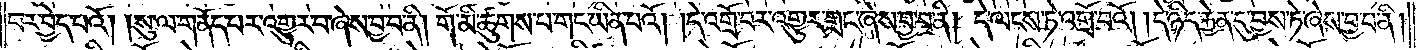པར་བྱེད་པའོ། །སུ་ལ་གནོད་པར་འགྱུར་པ་ཞེས་བྱ་བ་ནི། གོ་མི་ཚུགས་པ་གང་ཡིན་པའོ། །དེ་འགྲོ་བར་འགྱུར་གྲང་ཞེས་བྱ་བ་ནི། དེ་ལངས་ཏེ་འགྲོ་བའོ། །དེ་ཉིད་རྐྱེན་དུ་བྱས་ཏེ་ཞེས་བྱ་བ་ནི།
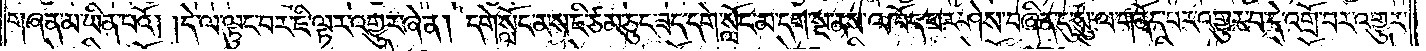གཞན་མ་ཡིན་པའོ། །དེ་ལ་ལྟུང་བར་ཇི་ལྟར་འགྱུར་ཞེ་ན། དགེ་སློང་མས་ཇི་ཙམ་ཅུང་ཟད་དགེ་སློང་མ་དག་སྔ་ནས་འཁོད་པར་ཤེས་བཞིན་དུ་སུ་ལ་གནོད་པར་འགྱུར་བ་དེ་འགྲོ་བར་འགྱུར་
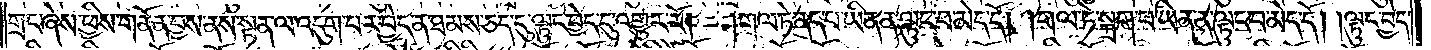གྲང་ཞེས་ཕྱིས་གནོན་བྱས་ནས་སྟན་ལ་འདུག་པར་བྱེད་ན་ཐམས་ཅད་དུ་ལྟུང་བྱེད་དུ་འགྱུར་རོ། །གལ་ཏེ་ནད་པ་ཡིན་ན་ལྟུང་བ་མེད་དོ། །གལ་ཏེ་སྐྲག་པ་ཡིན་ན་ལྟུང་བ་མེད་དོ། །ལྟུང་བྱེད་
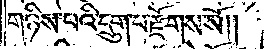གཉིས་པའི་དྲུག་པ་རྫོགས་སོ༎
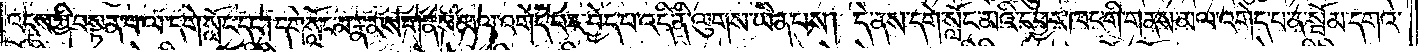འདས་ཀྱི་བསྟན་པ་ལ་དགེ་སློང་དང༌། དགེ་སློང་མ་རྣམས་གནས་མལ་འགེད་པར་བྱེད་པ་འདི་ནི་ལུགས་ཡིན་པས། དེ་ནས་དགེ་སློང་མའི་དབྱར་ཁང་གི་གནས་མལ་འགེད་པ་ན་སྦོམ་དགའ་
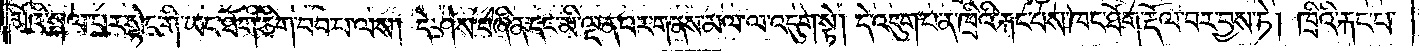མོའི་སྐལ་པར་སྟེང་གི་ཡང་ཐོག་ཅིག་བབ་པ་ལས། དེ་ཤེས་བཞིན་དང་མི་ལྡན་པར་གནས་མལ་ལ་འདུག་སྟེ། དེ་འདུག་པ་ན་ཁྲིའི་རྐང་པས་རྐང་བས་ཁང་ཐོག་རྡོལ་བར་བྱས་ཏེ། ཁྲིའི་རྐང་པ་
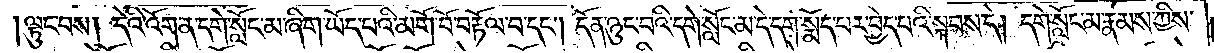ལྟུང་བས། དེའི་འོག་ན་དགེ་སློང་མ་ཞིག་ཡོད་པའི་མགོ་བོ་བརྟོལ་བ་དང༌། དོན་ཉུང་བའི་དགེ་སློང་མ་དེ་དག་སྨོད་པར་བྱེད་པའི་སྐབས་དེ། དགེ་སློང་མ་རྣམས་ཀྱིས་
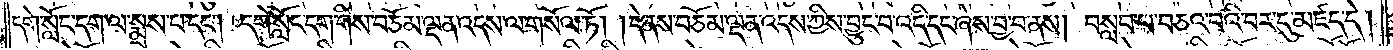དགེ་སློང་དག་ལ་སྨྲས་པ་དང༌། དགེ་སློང་དག་གིས་བཅོམ་ལྡན་འདས་ལ་གསོལ་ཏོ། །དེ་ནས་བཅོམ་ལྡན་འདས་ཀྱིས་བྱུང་བ་འདི་དང་ཞེས་བྱ་བ་ནས། བསླབ་པ་བཅའ་བའི་བར་དུ་མཛད་དེ།
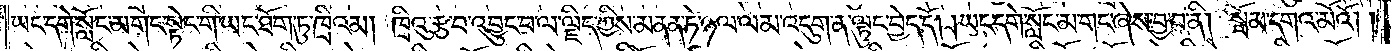ཡང་དགེ་སློང་མ་གང་སྟེང་གི་ཡང་ཐོག་ཏུ་ཁྲིའམ། ཁྲིའུ་རྩ་བ་འབྱུང་བ་ལ་ལྗིད་ཀྱིས་མནན་ཏེ་ཉལ་ལམ་འདུག་ན་ལྟུང་བྱེད་དོ། །ཡང་དགེ་སློང་མ་གང་ཞེས་བྱ་བ་ནི། སྦོམ་དགའ་མོའོ། །
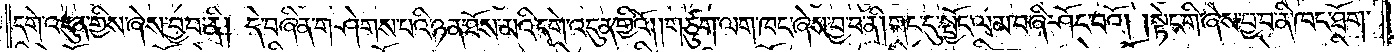དགེ་འདུན་གྱིས་ཞེས་བྱ་བ་ནི། དེ་བཞིན་གཤེགས་པའི་ཉན་ཐོས་མའི་དགེ་འདུན་གྱིའོ། །གཙུག་ལག་ཁང་ཞེས་བྱ་བ་ནི། གང་དུ་སྤྱོད་ལམ་བཞི་ཤོང་བའོ། །སྟེང་གི་ཞེས་བྱ་བ་ནི་ཁང་ཐོག་
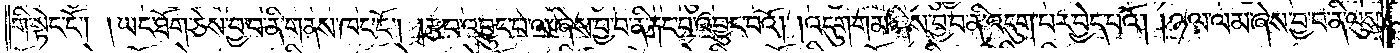གི་སྟེང་ངོ༌། །ཡང་ཐོག་ཅེས་བྱ་བ་ནི་གནས་ཁང་ངོ༌། །རྩ་བ་འབྱུང་བ་ལ་ཞེས་བྱ་བ་ནི་རྐང་པ་འབྱུང་བའོ། །འདུག་གམ་ཞེས་བྱ་བ་ནི་འདུག་པར་བྱེད་པའོ། །ཉལ་ལམ་ཞེས་བྱ་བ་ནི་ལུས་
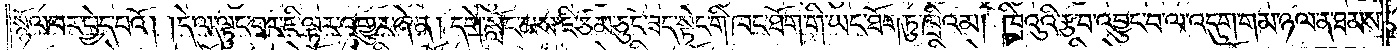སྙོལ་བར་བྱེད་པའོ། །དེ་ལ་ལྟུང་བར་ཇི་ལྟར་འགྱུར་ཞེ་ན། དགེ་སློང་མས་ཇི་ཙམ་ཅུང་ཟད་སྟེང་གི་ཁང་ཐོག་གི་ཡང་ཐོག་ཏུ་ཁྲིའམ། ཁྲིའུའི་རྩ་བ་འབྱུང་བ་ལ་འདུག་གམ་ཉལ་ན་ཐམས་
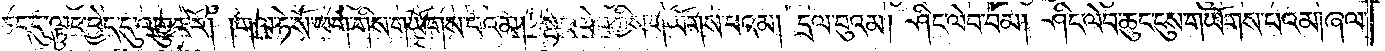ཅད་དུ་ལྟུང་བྱེད་དུ་གྱུར་རོ། །གལ་ཏེ་སོ་ཕག་གིས་གཡོགས་པའམ། སྤང་ལེབ་ཀྱིས་གཡོགས་པའམ། དྲལ་བུའམ། ཤིང་ལེབ་བམ། ཤིང་ལེབ་ཆུང་དུས་གཡོག་པའམ། ཞལ་
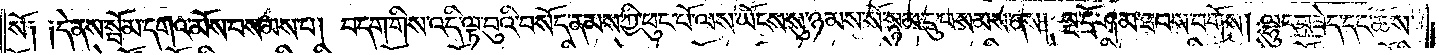སོ༑ ༑དེ་ནས་སྦོམ་དགའ་མོས་བསམས་པ། བདག་གིས་འདི་ལྟ་བུའི་བསོད་ནམས་ཀྱི་ཕུང་པོ་ལས་ཡོངས་སུ་ཉམས་སོ་སྙམ་དུ་བསམས་ནས། སྔ་དྲོ་ཤམ་ཐབས་བགོས། ལྷུང་བཟེད་དང་ཆོས་
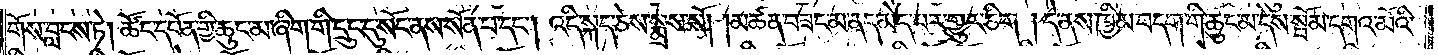གོས་བླངས་ཏེ། ཚོང་དཔོན་གྱི་ཆུང་མ་ཞིག་གི་དྲུང་དུ་སོང་ནས་སོན་པ་དང༌། འདི་སྐད་ཅེས་སྨྲས་སོ། །མཚན་བཟང་མ་ནད་མེད་པར་གྱུར་ཅིག །དེ་ནས་ཁྱིམ་བདག་གི་ཆུང་མ་དེས་སྦོམ་དགའ་མོའི་
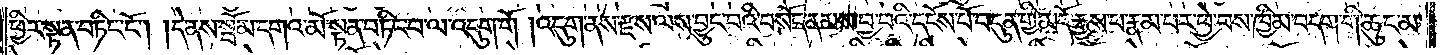ཕྱིར་སྟན་བཏིང་ངོ༌། །དེ་ནས་སྦོམ་དགའ་མོ་སྟན་བཏིང་བ་ལ་འདུག་གོ །འདུག་ནས་རྫས་ལས་བྱུང་བའི་བསོད་ནམས་བྱ་བའི་དངོས་པོ་བདུན་གྱི་མདོ་རྒྱས་པ་རྣམ་པར་ཕྱེ་བས་ཁྱིམ་བདག་གི་ཆུང་མ་
